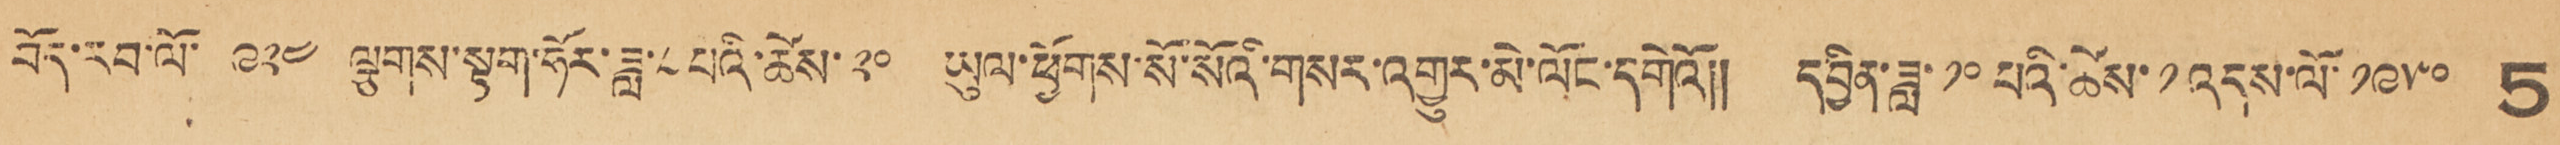བོད་རབ་ལོ་ ༩༢༤ ལྕགས་སྟག་ཧོར་ཟླ་ ༨ པའི་ཚེས་ ༢༠ ཡུལ་ཕྱོགས་སོ་སོའི་གསར་འགྱུར་མེ་ལོང་དགེའོ།། དབྱིན་ཟླ་ ༡༠ ཚེས་ ༡ འདས་ལོ་ ༡༩༥༠ 5
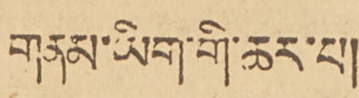གནམ་ཡིག་གི་ཆར་པ།
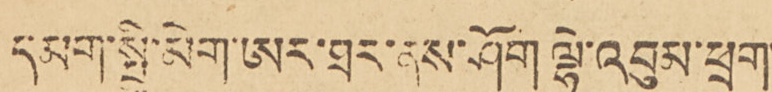དམག་སྤྱི་མེག་ཨར་ཐར་ནས་ཤོག་ལྷེ་འབུམ་ཕྲག་
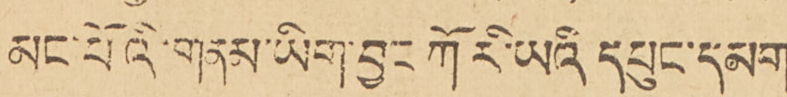མང་པོའི་གནམ་ཡིག་བྱང ཀོ རི་ཡའི དཔུང་དམག་
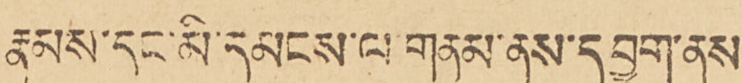རྣམས་དང་མི་དམངས་ལ གནམ་ནས་དབྱུག་ནས་
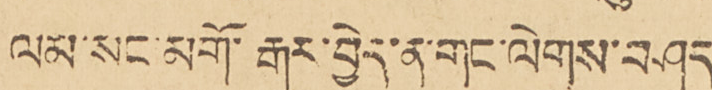ལམ་སང་མགོ་རྒུར་བྱེད་ན་གང་ལེགས་བཤད་
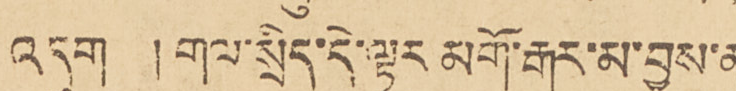འདུག །གལ་སྲིད་གེ་སྟར མགོ་རྒུར་མ་བྱས་ན་
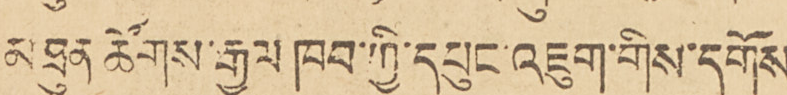མཐུན ཚོགས་རྒྱལ ཁབ་ཀྱི་དཔུང་འཇུག་གིས་དགོས་
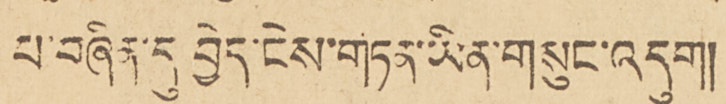པ་བཞིན་དུ་བྱེད་ངེས་གཏན་ཡིན་གསུང་འདུག།
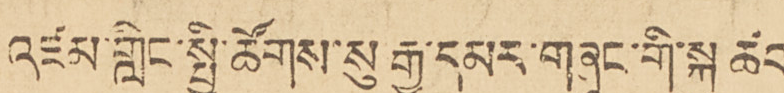འཛམ་གླིང་སྤྱི་ཚོགས་སུ རྒྱ་དམར་གཞུང་གི་སྐུ ཚབ་
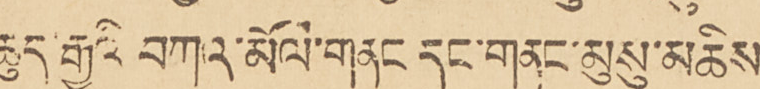ཆུད རྒྱུའི བཀའ་མོལ་གནང དང་གནང་མུསུ་མཆིས་
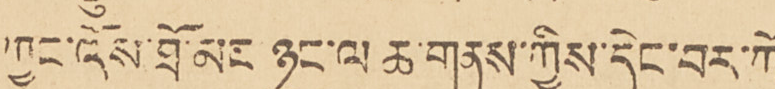ཀྱང་འོས་ཐོ་མང ཉུང་ལ ཆ་གནས་ཀྱིས་དེང་བར་ཀོ་
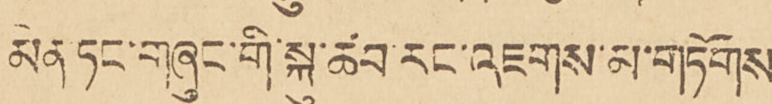མེན་ཏང་གཞུང་གི་སྐུ་ཚབ་རང་འཇགས་མ་གཏོགས་
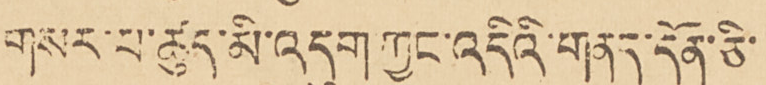གསར་པ་ཚུད་མི་འདུག ཀྱང་འདིའི་གནས་དོན་ཅི་
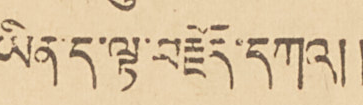ཡིན་ད་ལྟ་བརྗོད་བཀའ།།
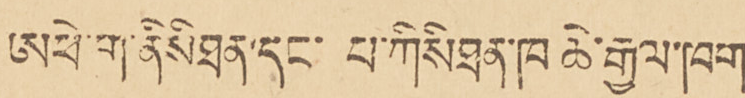ཨཕེ་ག་ནིསིཐན་དང་ པ་ཀིསིཐན་ཁ ཆེ་རྒྱལ་ཁག་
